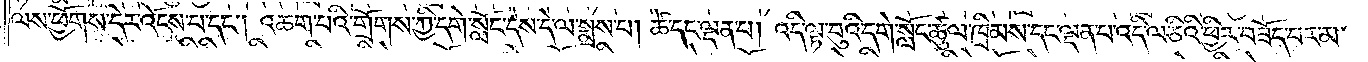ལས་ཕྱོགས་དེར་འོངས་པ་དང༌། འཆག་པའི་གྲོགས་ཀྱི་དགེ་སློང་དེས་དེ་ལ་སྨྲས་པ། ཚེ་དང་ལྡན་པ། འདི་ལྟ་བུའི་དགེ་སློང་ཚུལ་ཁྲིམས་དང་ལྡན་པ་འདི་ལ་ཅིའི་ཕྱིར་བཟོད་པར་མ་
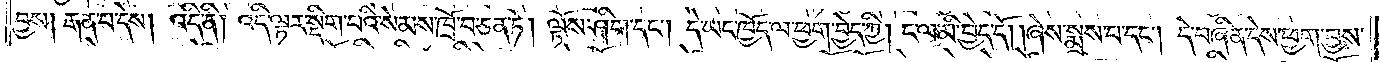བྱས། རྒན་པ་དེས། འདི་ནི། འདི་ལྟར་སྡིག་པའི་སེམས་ཁྲོ་བ་ཅན་ཏེ། ལྟོས་ཤིག་དང༌། དེ་ཡང་ཁྱོད་ལ་ཕྱག་བྱེད་ཀྱི། ང་ལ་མི་བྱེད་དོ། །ཞེས་སྨྲས་པ་དང༌། དེ་བཞིན་དེས་ཕྱག་བྱས་
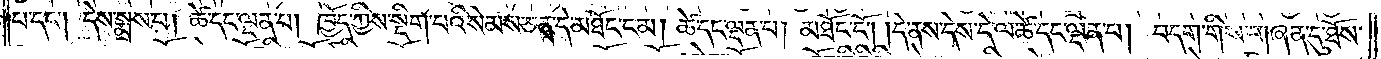པ་དང༌། དེས་སྨྲས་པ། ཚེ་དང་ལྡན་པ། ཁྱོད་ཀྱིས་སྡིག་པའི་སེམས་ཅན་དེ་མཐོང་ངམ། ཚེ་དང་ལྡན་པ། མཐོང་ངོ༌། །དེ་ནས་དེས་དེ་ལ་ཚེ་དང་ལྡན་པ། བདག་གིས་གཞན་དུ་ཐོས་
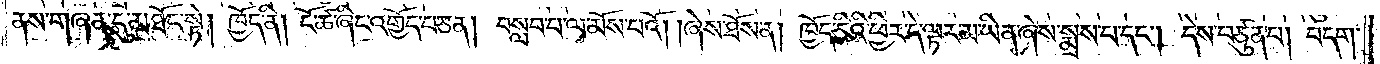ནས་གཞན་དུ་མཐོང་སྟེ། ཁྱོད་ནི། ངོ་ཚ་ཞིང་འགྱོད་པ་ཅན། བསླབ་པ་ལ་མོས་པའོ། །ཞེས་ཐོས་ན། ཁྱོད་ཅིའི་ཕྱིར་དེ་ལྟར་མ་ཡིན་ཞེས་སྨྲས་པ་དང༌། དེས་བཙུན་པ། བདག་
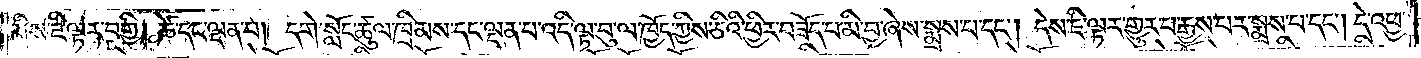གིས་ཇི་ལྟར་བགྱི། ཚེ་དང་ལྡན་པ། དགེ་སློང་ཚུལ་ཁྲིམས་དང་ལྡན་པ་འདི་ལྟ་བུ་ལ་ཁྱོད་ཀྱིས་ཅིའི་ཕྱིར་བཟོད་པ་མི་བྱ་ཞེས་སྨྲས་པ་དང༌། དེས་ཇི་ལྟར་གྱུར་པ་རྒྱས་པར་སྨྲས་པ་དང༌། དེ་འཕྱ་
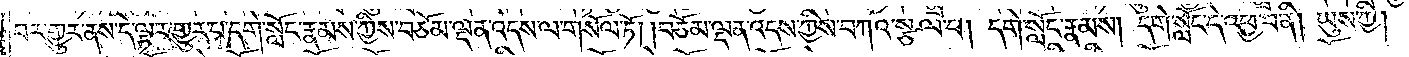བར་གྱུར་ནས་དེ་ལྟར་གྱུར་པ་དགེ་སློང་རྣམས་ཀྱིས་བཅོམ་ལྡན་འདས་ལ་གསོལ་ཏོ། །བཅོམ་ལྡན་འདས་ཀྱིས་བཀའ་སྩལ་པ། དགེ་སློང་རྣམས། དགེ་སློང་དེ་འཕྱ་བ་ནི། ཡུས་ཀྱི།
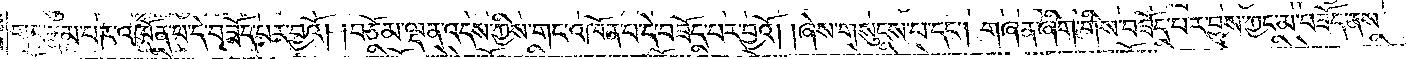གང་རྣམ་པར་འཁོན་པ་དེ་བཟོད་པར་བྱའོ། །བཅོམ་ལྡན་འདས་ཀྱིས་གང་འཁོན་པ་དེ་བཟོད་པར་བྱའོ། །ཞེས་གསུངས་པ་དང༌། གཞན་ཞིག་གིས་བཟོད་པར་བྱས་ཀྱང་མ་བཟོད་ནས་
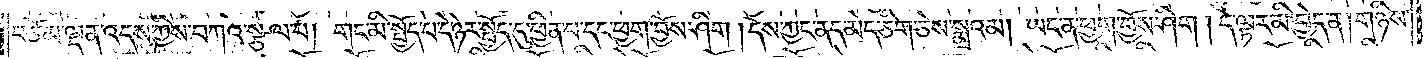བཅོམ་ལྡན་འདས་ཀྱིས་བཀའ་སྩལ་པ། གང་མི་སྤྱོད་པ་དེ་ཉེར་སྤྱོད་དུ་ཕྱིན་པ་དང་ཕྱག་བྱོས་ཤིག །དེས་ཀྱང་ནད་མེད་ཅིག་ཅེས་སྨྲའམ། ཡང་ན་ཕྱག་བྱོས་ཤིག །དེ་ལྟར་མི་བྱེད་ན། གཉིས་
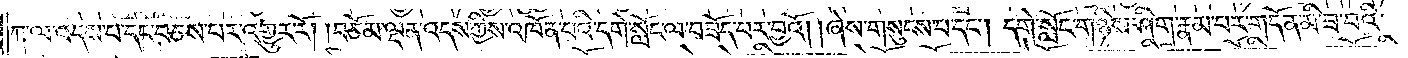ཀ་ལ་འདས་པ་དང་བཅས་པར་འགྱུར་རོ། །བཅོམ་ལྡན་འདས་ཀྱིས་འཁོན་པའི་དགེ་སློང་ལ་བཟོད་པར་བྱའོ། །ཞེས་གསུངས་པ་དང༌། དགེ་སློང་གཉིས་ཤིག་རྣམ་པར་གདོན་མི་ཟ་བའི་
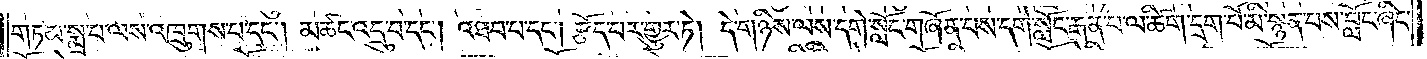གཏམ་སྨྲ་པ་ལས་འཁྲུགས་པ་དང༌། མཚང་འདྲུ་བ་དང༌། འཐབ་པ་དང༌། རྩོད་པར་གྱུར་ཏེ། དེ་གཉིས་ལས་དགེ་སློང་གཞོན་པས་དགེ་སློང་རྒན་པ་ལ་ཚིག་དྲག་པོ་མི་སྙན་པས་བློང་ཞིང་
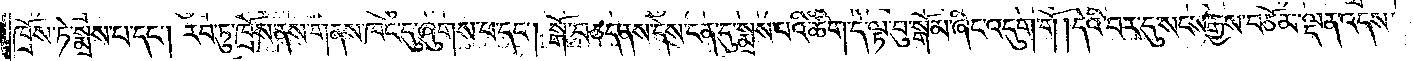ཁྲོས་ཏེ་སྨྲས་པ་དང༌། རབ་ཏུ་ཁྲོས་ནས་གནས་ཁང་དུ་ཞུགས་པ་དང༌། སྒོ་བཅད་ནས་དེས་ངན་དུ་སྨྲས་པའི་ཚིག་དེ་ལྟ་བུ་སྒོམ་ཞིང་འདུག་གོ །དེའི་བར་དུ་སངས་རྒྱས་བཅོམ་ལྡན་འདས་
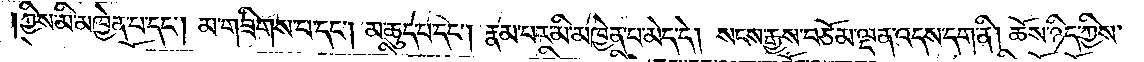ཀྱིས་མི་མཁྱེན་པ་དང༌། མ་གཟིགས་པ་དང༌། མ་ཆུད་པ་དང༌། རྣམ་པར་མི་མཁྱེན་པ་མེད་དེ། སངས་རྒྱས་བཅོམ་ལྡན་འདས་དག་ནི། ཆོས་ཉིད་ཀྱིས་
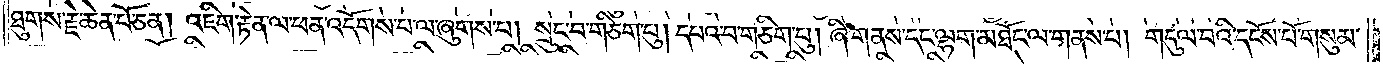ཐུགས་རྗེ་ཆེན་པོ་ཅན། འཇིག་རྟེན་ལ་ཕན་འདོགས་པ་ལ་ཞུགས་པ། སྲུང་བ་གཅིག་པུ། དཔའ་བ་གཅིག་པུ། ཞི་གནས་དང་ལྷག་མཐོང་ལ་གནས་པ། གདུལ་བའི་དངོས་པོ་གསུམ་
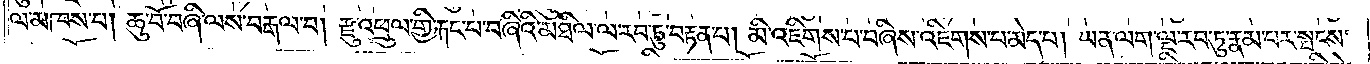ལ་མཁས་པ། ཆུ་བོ་བཞི་ལས་བརྒལ་བ། རྫུ་འཕྲུལ་གྱི་རྐང་པ་བཞིའི་མཐིལ་ལ་རབ་ཏུ་བརྟན་པ། མི་འཇིགས་པ་བཞིས་འཇིགས་པ་མེད། ཡན་ལག་ལྔ་རབ་ཏུ་རྣམ་པར་སྤངས་
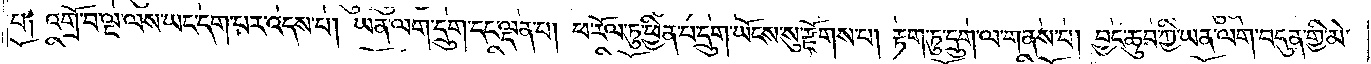པ༑ འགྲོ་བ་ལྔ་ལས་ཡང་དག་པར་འདས་པ། ཡན་ལག་དྲུག་དང་ལྡན་པ། ཕ་རོལ་ཏུ་ཕྱིན་པ་དྲུག་ཡོངས་སུ་རྫོགས་པ། རྟག་ཏུ་དྲུག་ལ་གནས་པ། བྱང་ཆུབ་ཀྱི་ཡན་ལག་བདུན་གྱི་མེ་
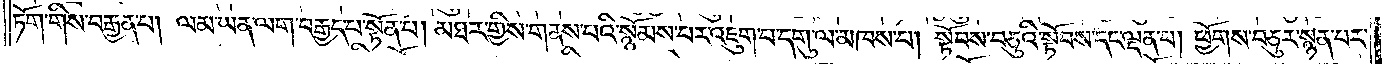ཏོག་གིས་བརྒྱན་པ། ལམ་ཡན་ལག་བརྒྱད་པ་སྟོན་པ། མཐར་གྱིས་གནས་པའི་སྙོམས་པར་འཇུག་པ་དགུ་ལ་མཁས་པ། སྟོབས་བཅུའི་སྟོབས་དང་ལྡན་པ། ཕྱོགས་བཅུར་སྙན་པར་
